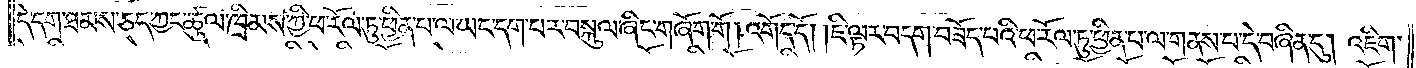དེ་དག་ཐམས་ཅད་ཀྱང་ཚུལ་ཁྲིམས་ཀྱི་ཕ་རོལ་ཏུ་ཕྱིན་པ་ལ་ཡང་དག་པར་བསྐུལ་ཞིང་གཞོག་གོ །འགོད་དོ། །ཇི་ལྟར་བདག་བཟོད་པའི་ཕ་རོལ་ཏུ་ཕྱིན་པ་ལ་གནས་པ་དེ་བཞིན་དུ། འཇིག་
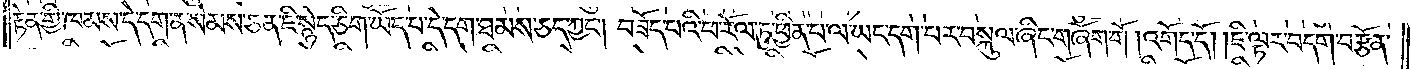རྟེན་གྱི་ཁམས་དེ་དག་ན་སེམས་ཅན་ཇི་སྙེད་ཅིག་ཡོད་པ་དེ་དག་ཐམས་ཅད་ཀྱང༌། བཟོད་པའི་ཕ་རོལ་ཏུ་ཕྱིན་པ་ལ་ཡང་དག་པར་བསྐུལ་ཞིང་གཞོག་གོ །འགོད་དོ། །ཇི་ལྟར་བདག་བརྩོན་
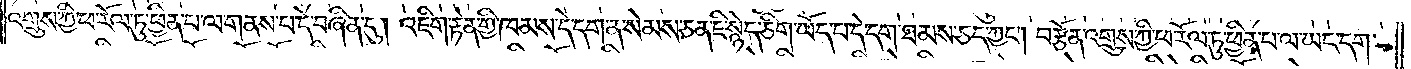འགྲུས་ཀྱི་ཕ་རོལ་ཏུ་ཕྱིན་པ་ལ་གནས་པ་དེ་བཞིན་དུ། འཇིག་རྟེན་གྱི་ཁམས་དེ་དག་ན་སེམས་ཅན་ཇི་སྙེད་ཅིག་ཡོད་པ་དེ་དག་ཐམས་ཅད་ཀྱང༌། བརྩོན་འགྲུས་ཀྱི་ཕ་རོལ་ཏུ་ཕྱིན་པ་ལ་ཡང་དག་
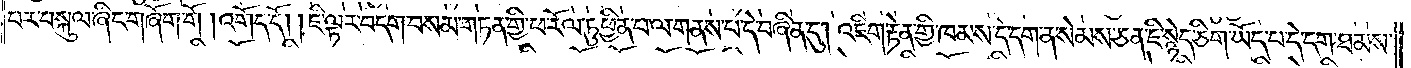པར་བསྐུལ་ཞིང་གཞོག་གོ །འགོད་དོ། །ཇི་ལྟར་བདག་བསམ་གཏན་གྱི་ཕ་རོལ་ཏུ་ཕྱིན་པ་ལ་གནས་པ་དེ་བཞིན་དུ། འཇིག་རྟེན་གྱི་ཁམས་དེ་དག་ན་སེམས་ཅན་ཇི་སྙེད་ཅིག་ཡོད་པ་དེ་དག་ཐམས་
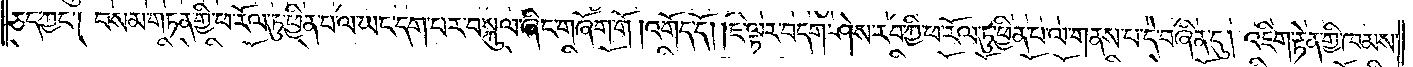ཅད་ཀྱང༌། བསམ་གཏན་གྱི་ཕ་རོལ་ཏུ་ཕྱིན་པ་ལ་ཡང་དག་པར་བསྐུལ་ཞིང་གཞོག་གོ །འགོད་དོ། །ཇི་ལྟར་བདག་ཤེས་རབ་ཀྱི་ཕ་རོལ་ཏུ་ཕྱིན་པ་ལ་གནས་པ་དེ་བཞིན་དུ། འཇིག་རྟེན་གྱི་ཁམས་
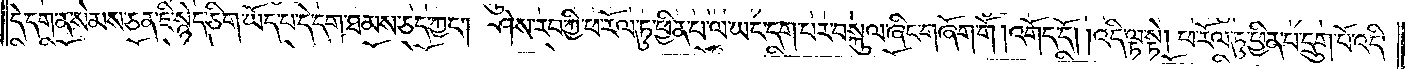དེ་དག་ན་སེམས་ཅན་ཇི་སྙེད་ཅིག་ཡོད་པ་དེ་དག་ཐམས་ཅད་ཀྱང༌། ཤེས་རབ་ཀྱི་ཕ་རོལ་ཏུ་ཕྱིན་པ་ལ་ཡང་དག་པར་བསྐུལ་ཞིང་གཞོག་གོ །འགོད་དོ། །འདི་ལྟ་སྟེ། ཕ་རོལ་ཏུ་ཕྱིན་པ་དྲུག་པོ་འདི་
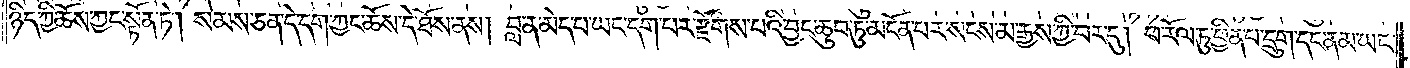ཉིད་ཀྱི་ཆོས་ཀྱང་སྟོན་ཏེ། སེམས་ཅན་དེ་དག་ཀྱང་ཆོས་དེ་ཐོས་ནས། བླ་ན་མེད་པ་ཡང་དག་པར་རྫོགས་པའི་བྱང་ཆུབ་ཏུ་མངོན་པར་སངས་མ་རྒྱས་ཀྱི་བར་དུ། ཕ་རོལ་ཏུ་ཕྱིན་པ་དྲུག་དང་ནམ་ཡང་
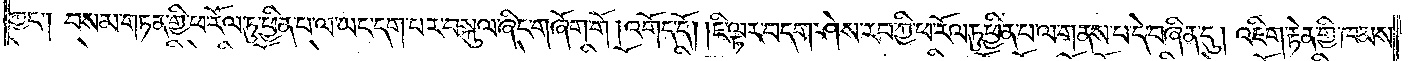ཀྱང༌། བསམ་གཏན་གྱི་ཕ་རོལ་ཏུ་ཕྱིན་པ་ལ་ཡང་དག་པར་བསྐུལ་ཞིང་གཞོག་གོ །འགོད་དོ། །ཇི་ལྟར་བདག་ཤེས་རབ་ཀྱི་ཕ་རོལ་ཏུ་ཕྱིན་པ་ལ་གནས་པ་དེ་བཞིན་དུ། འཇིག་རྟེན་གྱི་ཁམས་
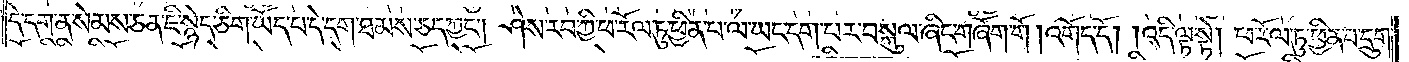དེ་དག་ན་སེམས་ཅན་ཇི་སྙེད་ཅིག་ཡོད་པ་དེ་དག་ཐམས་ཅད་ཀྱང༌། ཤེས་རབ་ཀྱི་ཕ་རོལ་ཏུ་ཕྱིན་པ་ལ་ཡང་དག་པར་བསྐུལ་ཞིང་གཞོག་གོ །འགོད་དོ། །འདི་ལྟ་སྟེ། ཕ་རོལ་ཏུ་ཕྱིན་པ་དྲུག་
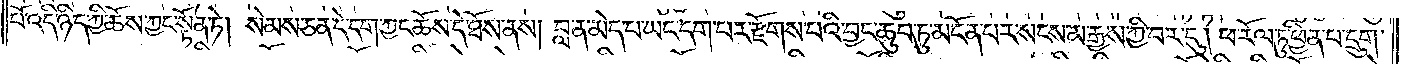པོ་འདི་ཉིད་ཀྱི་ཆོས་ཀྱང་སྟོན་ཏེ། སེམས་ཅན་དེ་དག་ཀྱང་ཆོས་དེ་ཐོས་ནས། བླ་ན་མེད་པ་ཡང་དག་པར་རྫོགས་པའི་བྱང་ཆུབ་ཏུ་མངོན་པར་སངས་མ་རྒྱས་ཀྱི་བར་དུ། ཕ་རོལ་ཏུ་ཕྱིན་པ་དྲུག་
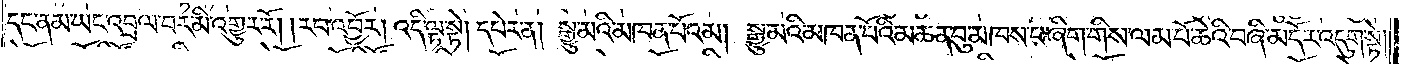དང་ནམ་ཡང་བྲལ་བར་མི་འགྱུར་རོ། །རབ་འབྱོར། འདི་ལྟ་སྟེ། དཔེར་ན། སྒྱུ་མའི་མཁན་པོ་འམ། སྒྱུ་མའི་མཁན་པོའི་མཆན་བུ་མཁས་པ་ཞིག་གིས་ལམ་པོ་ཆེའི་བཞི་མདོར་འདུག་སྟེ།
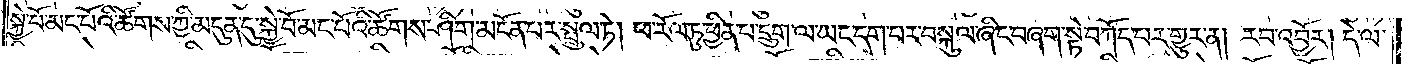སྐྱེ་བོ་མང་པོའི་ཚོགས་ཀྱི་མདུན་དུ་སྐྱེ་བོ་མང་པོའི་ཚོགས་ཤིག་མངོན་པར་སྤྲུལ་ཏེ། ཕ་རོལ་ཏུ་ཕྱིན་པ་དྲུག་ལ་ཡང་དག་པར་བསྐུལ་ཞིང་བཞག་སྟེ་བཀོད་པར་གྱུར་ན། རབ་འབྱོར། དེ་ལ་
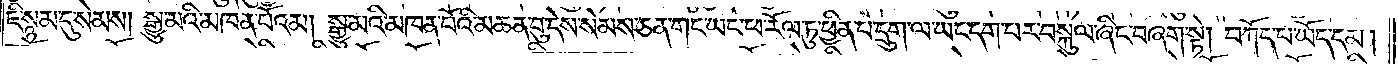ཇི་སྙམ་དུ་སེམས། སྒྱུ་མའི་མཁན་པོ་འམ། སྒྱུ་མའི་མཁན་པོའི་མཆན་བུ་དེས་སེམས་ཅན་གང་ཡང་ཕ་རོལ་ཏུ་ཕྱིན་པ་དྲུག་ལ་ཡང་དག་པར་བསྐུལ་ཞིང་བཞག་སྟེ། བཀོད་པ་ཡོད་དམ།
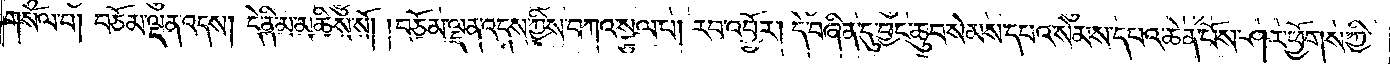གསོལ་བ། བཅོམ་ལྡན་འདས། དེ་ནི་མ་མཆིས་སོ། །བཅོམ་ལྡན་འདས་ཀྱིས་བཀའ་སྩལ་བ། རབ་འབྱོར། དེ་བཞིན་དུ་བྱང་ཆུབ་སེམས་དཔའ་སེམས་དཔའ་ཆེན་པོས་ཤར་ཕྱོགས་ཀྱི་
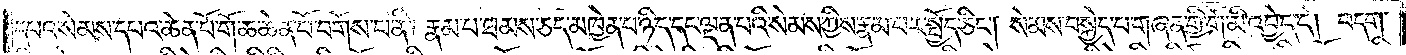དཔའ་སེམས་དཔའ་ཆེན་པོ་གོ་ཆ་ཆེན་པོ་བགོས་པ་ནི། རྣམ་པ་ཐམས་ཅད་མཁྱེན་པ་ཉིད་དང་ལྡན་པའི་སེམས་ཀྱིས་རྣམ་པར་སྤྱོད་ཅིང༌། སེམས་བསྐྱེད་པ་གཞན་གྱི་གོ་མི་འབྱེད་དེ། བདག་
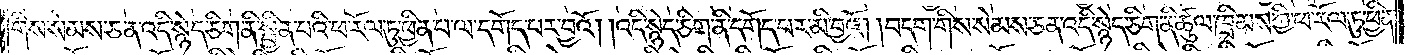གིས་སེམས་ཅན་འདི་སྙེད་ཅིག་ནི་སྦྱིན་པའི་ཕ་རོལ་ཏུ་ཕྱིན་པ་ལ་དགོད་པར་བྱའོ། །འདི་སྙེད་ཅིག་ནི་དགོད་པར་མི་བྱའོ། །བདག་གིས་སེམས་ཅན་འདི་སྙེད་ཅིག་ནི་ཚུལ་ཁྲིམས་ཀྱི་ཕ་རོལ་ཏུ་ཕྱིན་
